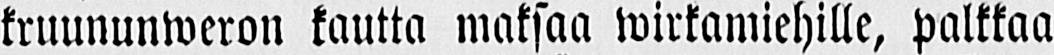kruununweron kautta maksaa wirkamiehille, palkkaa
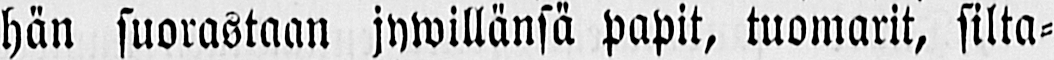hän suorastaan jywillänsä papit, tuomarit, silta-
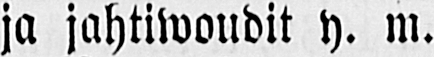ja jahtiwoudit y. m.
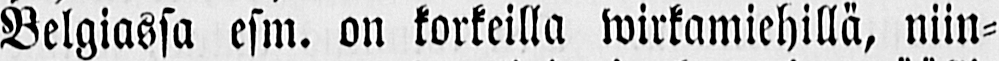Belgiassa esm. on korkeilla wirkamiehillä, niin-
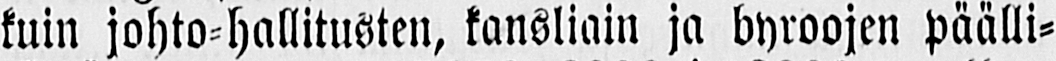kuin johto-hallitusten, kansliani ja byroojen päälli-
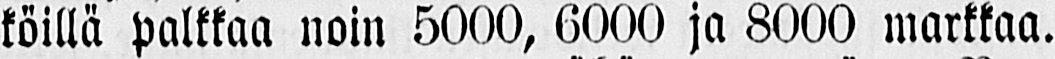köillä palkkaa noin 5000, 6000 ja 8000 markkaa.
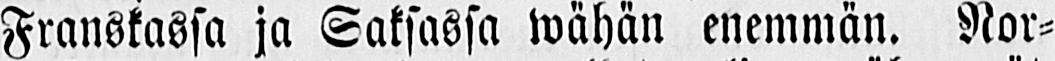Franskassa ja Saksassa wähän enemmän. Nor-
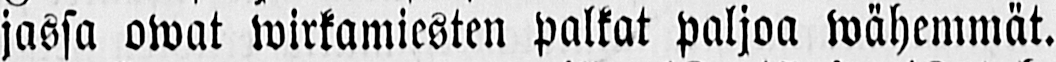jassa owat wirkamiesten palkat paljoa wähemmät.
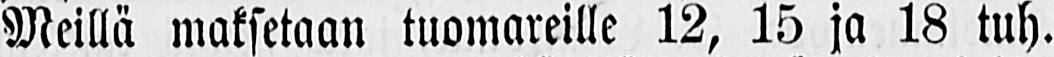Meillä maksetaan tuomareille 12, 15 ja 18 tuh.
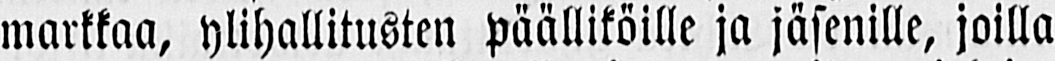markkaa, ylihallitusten päälliköille ja jäsenille, joilla
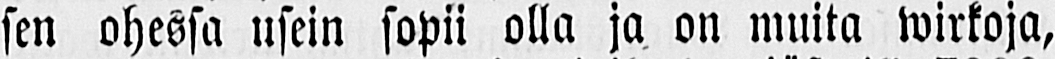sen ohessa usein sopii olla ja on muita wirkoja,
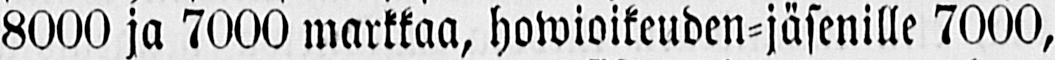8000 ja 7000 markkaa, howioikeuden-jäsenille 7000,
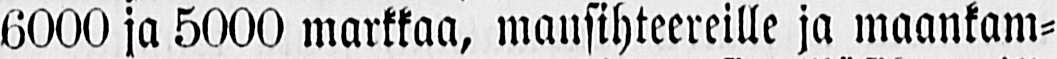6000 ja 5000 markkaa, mansihteereille ja maankam-
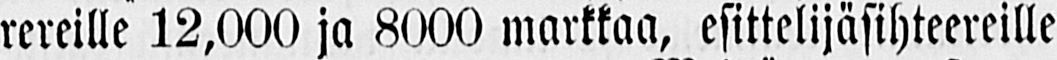rereille 12,000 ja 8000 markkaa, esittelijäsihteereille
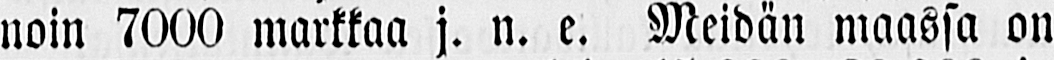noin 7000 markkaa j. n. e. Meidän maassa on
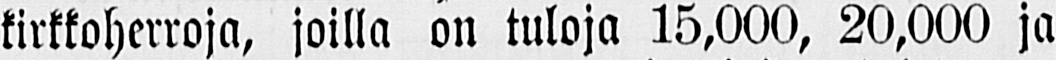kirkkoherroja, joilla on tuloja 15,000, 20,000 ja
